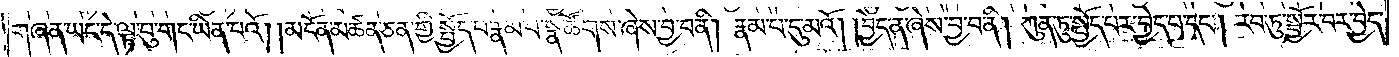གཞན་ཡང་དེ་ལྟ་བུ་གང་ཡིན་པའོ། །མངོན་མཚན་ཅན་གྱི་སྤྱོད་པ་རྣམ་པ་སྣ་ཚོགས་ཞེས་བྱ་བ་ནི། རྣམ་པ་དུ་མའོ། །བྱེད་ན་ཞེས་བྱ་བ་ནི། ཀུན་ཏུ་སྤྱོད་པར་བྱེད་པ་དང༌། རབ་ཏུ་སྦྱོར་བར་བྱེད་
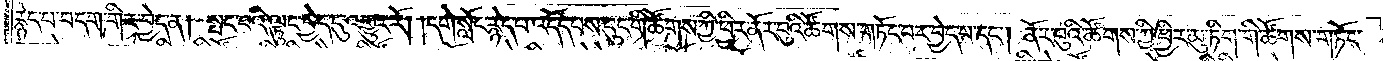རྙེད་པ་བདག་གིར་བྱེད་ན། སྤང་བའི་ལྟུང་བྱེད་དུ་འགྱུར་རོ། །དགེ་སློང་རྙེད་པ་འདོད་པས་དུང་གི་ཚོགས་ཀྱི་ཕྱིར་ནོར་བུའི་ཚོགས་གཏོང་བར་བྱེད་པ་དང༌། ནོར་བུའི་ཚོགས་ཀྱི་ཕྱིར་མུ་ཏིག་གི་ཚོགས་གཏོང་
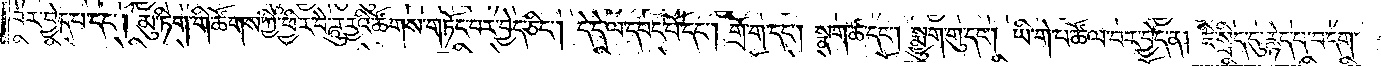བར་བྱེད་པ་དང༌། མུ་ཏིག་གི་ཚོགས་ཀྱི་ཕྱིར་བཻཌཱུཪྻའི་ཚོགས་གཏོང་བར་བྱེད་ཅིང༌། དེ་དེ་ལ་དབང་པོ་དང༌། གྲོ་ག་དང༌། སྣག་ཚ་དང༌། སྨྱུག་གུ་དང༌། ཡི་གེ་པ་ཚོལ་བར་བྱེད་ན། ཇི་སྲིད་དུ་རྙེད་པ་བདག་
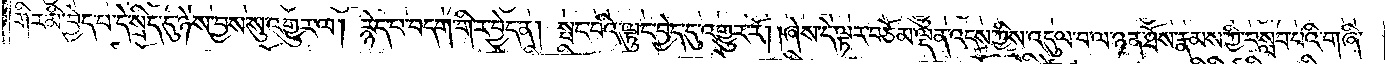གིར་མི་བྱེད་པ་དེ་སྲིད་དུ་ཉེས་བྱས་སུ་འགྱུར་ལ། རྙེད་པ་བདག་གིར་བྱེད་ན། སྤང་བའི་ལྟུང་བྱེད་དུ་འགྱུར་རོ། །ཞེས་དེ་ལྟར་བཅོམ་ལྡན་འདས་ཀྱིས་འདུལ་བ་ལ་ཉན་ཐོས་རྣམས་ཀྱི་བསླབ་པའི་གཞི་
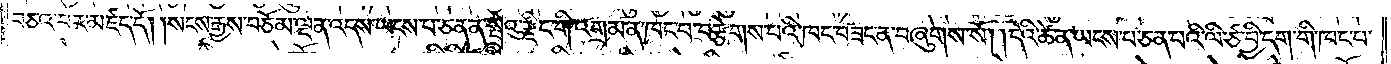བཅའ་བར་མཛད་དོ། །སངས་རྒྱས་བཅོམ་ལྡན་འདས་ཡངས་པ་ཅན་ན་སྤྲེའུ་རྫིང་གི་འགྲམ་ན་ཁང་པ་བརྩེགས་པའི་ཁང་བཟང་ན་བཞུགས་སོ། །དེའི་ཚེ་ན་ཡངས་པ་ཅན་པའི་ལི་ཙ་བྱི་དག་གི་ཁང་པ་
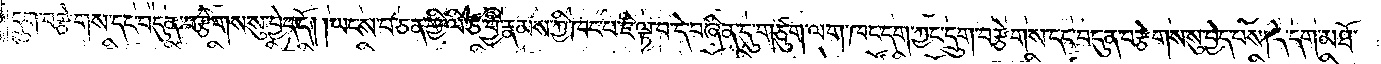དྲུག་བརྩེགས་དང་བདུན་བརྩེགས་སུ་བྱེད་དོ། །ཡངས་པ་ཅན་གྱི་ལི་ཙ་བྱི་རྣམས་ཀྱི་ཁང་པ་ཇི་ལྟ་བ་དེ་བཞིན་དུ་གཙུག་ལག་ཁང་དག་ཀྱང་དྲུག་བརྩེགས་དང་བདུན་བརྩེགས་སུ་བྱེད་པས། དེ་དག་མཐོ་
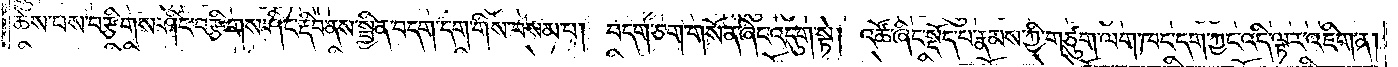ཆེས་པས་བརྩིགས་ཤིང་བརྩིགས་ཤིང་རྡིབ་ནས་སྦྱིན་བདག་དག་གིས་བསམ་པ། བདག་ཅག་གསོན་ཞིང་འདུག་སྟེ། འཚོ་ཞིང་སྡོད་པ་རྣམས་ཀྱི་གཙུག་ལག་ཁང་དག་ཀྱང་འདི་ལྟར་འཇིག་ན།
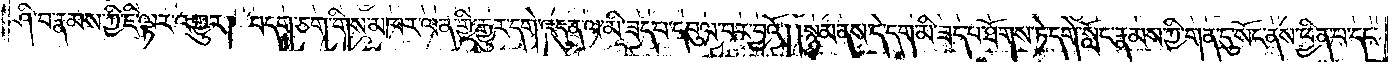ཤི་བ་རྣམས་ཀྱི་ཇི་ལྟར་འགྱུར། བདག་ཅག་གིས་མཁར་ལན་གྱི་རྒྱུར་དགེ་འདུན་ལ་མི་ཟད་པ་དབུལ་བར་བྱའོ། །སྙམ་ནས་དེ་དག་མི་ཟད་པ་ཐོགས་ཏེ་དགེ་སློང་རྣམས་ཀྱི་གན་དུ་སོང་ནས་ཕྱིན་པ་དང་
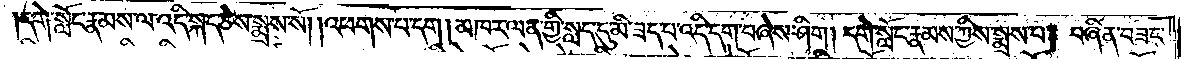དགེ་སློང་རྣམས་ལ་འདི་སྐད་ཅེས་སྨྲས་སོ། །འཕགས་པ་དག །མཁར་ལན་གྱི་སླད་དུ་མི་ཟད་པ་འདི་དག་བཞེས་ཤིག །དགེ་སློང་རྣམས་ཀྱིས་སྨྲས་པ། བཞིན་བཟང་
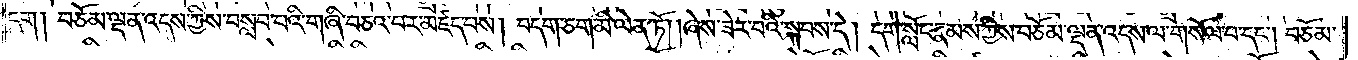དག། བཅོམ་ལྡན་འདས་ཀྱིས་བསླབ་པའི་གཞི་བཅའ་བར་མཛད་པས། བདག་ཅག་མི་ལེན་ཏོ། །ཞེས་ཟེར་བའི་སྐབས་དེ། དགེ་སློང་རྣམས་ཀྱིས་བཅོམ་ལྡན་འདས་ལ་གསོལ་པ་དང༌། བཅོམ་
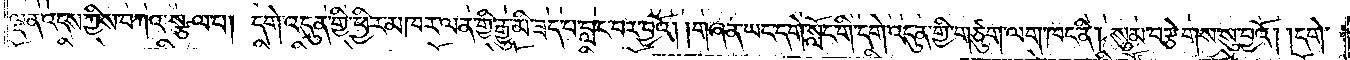ལྡན་འདས་ཀྱིས་བཀའ་སྩལ་པ། དགེ་འདུན་གྱི་ཕྱིར་མཁར་ལན་གྱི་རྒྱུ་མི་ཟད་པ་བླང་བར་བྱའོ། །གཞན་ཡང་དགེ་སློང་གི་དགེ་འདུན་གྱི་གཙུག་ལག་ཁང་ནི། སུམ་བརྩེགས་སུ་བྱའོ། །དགེ་
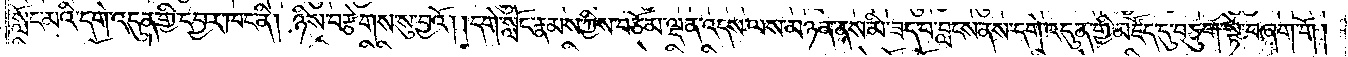སློང་མའི་དགེ་འདུན་གྱི་དབྱར་ཁང་ནི། ཉིས་བརྩེགས་སུ་བྱའོ། །དགེ་སློང་རྣམས་ཀྱིས་བཅོམ་ལྡན་འདས་ལས་མཉན་ནས་མི་ཟད་པ་བླངས་ནས་དགེ་འདུན་གྱི་མཛོད་དུ་བཅུག་སྟེ་བཞག་གོ།
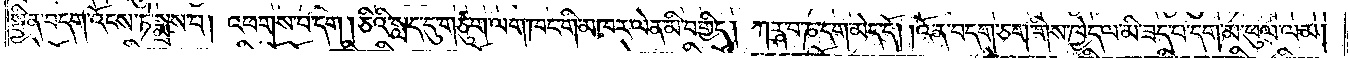སྦྱིན་བདག་འོངས་ཏེ་སྨྲས་པ། འཕགས་པ་དག །ཅིའི་སླད་དུ་གཙུག་ལག་ཁང་གི་མཁར་ལེན་མི་བགྱིད། ཀརྴ་བ་ཎ་དག་མེད་དོ། །འོ་ན་བདག་ཅག་གིས་ཁྱེད་ལ་མི་ཟད་པ་དག་མ་ཕུལ་ལམ།
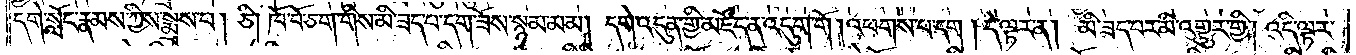དགེ་སློང་རྣམས་ཀྱིས་སྨྲས་པ། ཅི། ཁོ་བོ་ཅག་གིས་མི་ཟད་པ་དག་ཟོས་སྙམ་མམ། དགེ་འདུན་གྱི་མཛོད་ན་འདུག་གོ། འཕགས་པ་དག། དེ་ལྟར་ན། མི་ཟད་པར་མི་འགྱུར་གྱི། འདི་ལྟར་
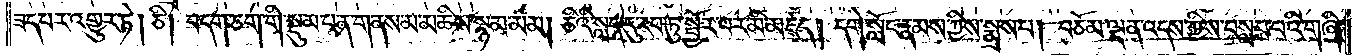ཟད་པར་འགྱུར་ཏེ། ཅི། བདག་ཅག་གི་སྡུམ་པ་ན་གནས་མ་མཆིས་སྙམ་མམ། ཅིའི་སླད་དུ་རབ་ཏུ་སྦྱོར་བར་མི་མཛད། དགེ་སློང་རྣམས་ཀྱིས་སྨྲས་པ། བཅོམ་ལྡན་འདས་ཀྱིས་བསླབ་པའི་གཞི་
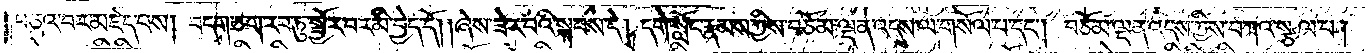བཅའ་བར་མཛད་པས། བདག་ཅག་རབ་ཏུ་སྦྱོར་བར་མི་བྱེད་དོ། །ཞེས་ཟེར་བའི་སྐབས་དེ། དགེ་སློང་རྣམས་ཀྱིས་བཅོམ་ལྡན་འདས་ལ་གསོལ་པ་དང༌། བཅོམ་ལྡན་འདས་ཀྱིས་བཀའ་སྩལ་པ།
